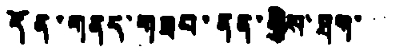དོན་གནད་གཟབ་ནན་གྱིས་ཐག་་་
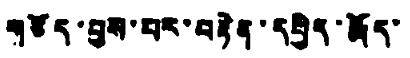གཅོད་བྱས་པར་བརྟེན་དཔྱིད་རྨོད་
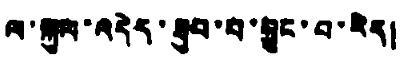ལ་སྐུལ་འདེད་ཐུབ་པ་བྱུང་བ་རེད།
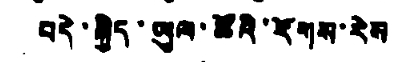བདེ་སྐྱིད་ཡུལ་ཚོའི་རོགས་རེས
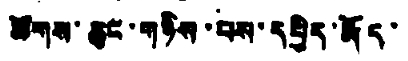ཚོགས་ཆུང་གཉིས་པས་དཔྱིད་རྨོད་
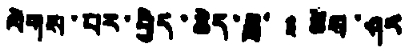ལེགས་པར་བྱེད་ཆེད་ཟླ་ ༣ ཚེས་ཤར
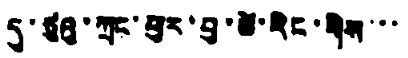དུ་ཅུའུ་ཀྲང་ཕུར་བུ་ཚེ་རིང་གིས་་་
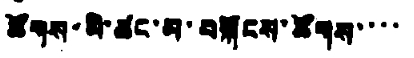ཚོགས་མི་ཚང་མ་བསྐོངས་ཚོགས་་་་
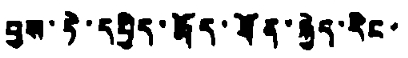བྱས་ཏེ་དཔྱིད་རྨོད་ཐོན་སྐྱེད་རིང་
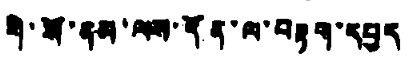གི་སོ་ནམ་ལས་དོན་ལ་བརྟག་དཔྱད
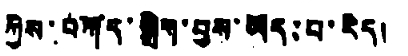ཀྱིས་བཀོད་སྒྲིག་བྱས་ཡོད་པ་རེད།
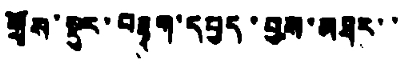གྲོས་སྡུར་བསྟག་དཔྱད་བྱས་མཐར་་
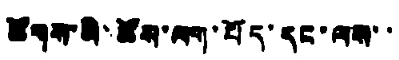ཚགས་མི་ཚོས་ལག་པོད་དང་ལས་་
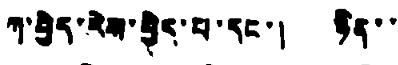ཀ་བྱེད་རེས་བྱེད་པ་དང་། ཉིན་་
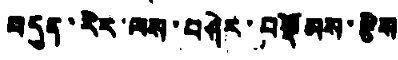བདུན་རིར་ལས་བཤེར་བསྡོམས་རྩིས
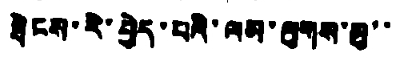ཐེངས་རེ་བྱེད་པའི་ལམ་ལུགས་མུ་་
